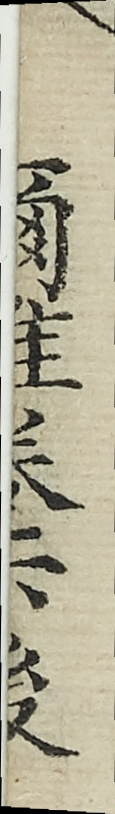爾雅卷後
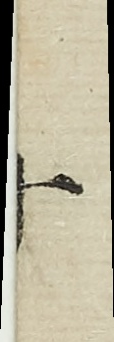一
